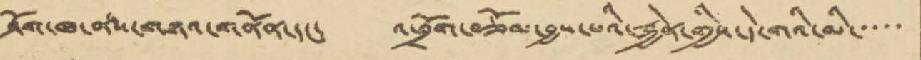ཤོག་ཁ་ནས་གཉའ་གནོན་དང་ འཕྲོག་བཅོམ་བྱས་པའི་རྐྱེན་གྱིས་དེ་གའི་མི་་་་་
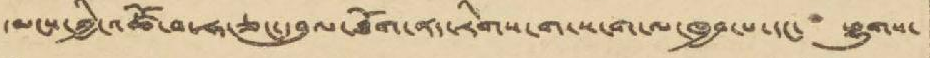དམངས་ཀྱི་འཚོ་བ་ཧ་ཅང་དབུལ་ཐོག་ནད་རིགས་ག་ས་ག་ལ་ཁྱབ་པ་དང་ ཕྱུགས་
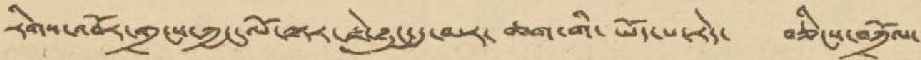རིགས་འབོར་གྲངས་ཀྱང་ལོ་ལྟར་ཇེ་ཉུང་དུ་མར་ཆག་གི་ཡོད་པ་རེད་ བཅིངས་བཀྲོལ་
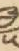༥
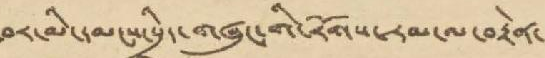བར་མི་དམངས་སྲིད་གཞུང་གི་རོགས་རམ་ལ་བརྟེན་
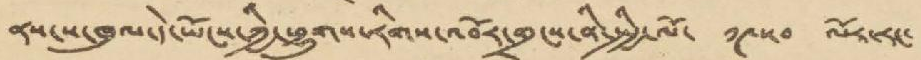ནས་ས་ཁུལ་དེ་ཡོངས་ཀྱི་ཕྱུགས་རིགས་འབོར་གྲངས་ནི་སྤྱི་ལོ་ ༡༩༥༠ ལོར་རང་
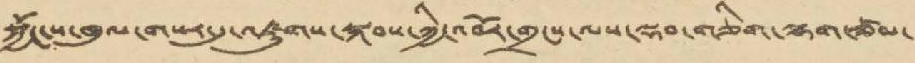སྐྱོང་ས་ཁུལ་གསར་དུ་འཛུགས་སྐབས་ཀྱི་འབོར་གྲངས་ལས་ལྡབ་གཅིག་ལྷག་ཙམ་
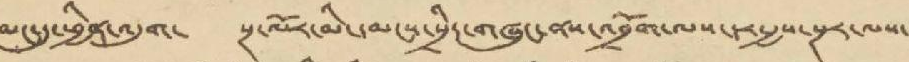མང་དུ་ཕྱིན་འདུག་ སྔ་ལོར་མི་དམངས་སྲིད་གཞུང་ནས་འབྲོག་ལས་དར་རྒྱས་སྔར་ལས་
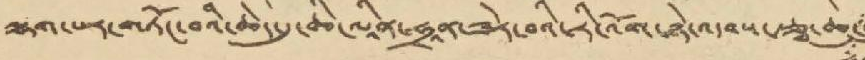ལྷག་པར་གཏོང་བའི་ཆེད་དུ་ཆི་ལཱིན་ཧྲཱན་ཟེར་བའི་རི་འོག་ཉེ་འདབས་རྩྭ་ཆུ་
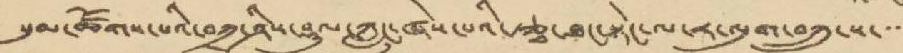སུམ་ཚོགས་པའི་བཀྲ་ཤིས་ཤུལ་ཀླུང་ཞེས་པའི་རྩྭ་ཐང་སྟེང་ལ་ར་ལུག་བཀྲུ་ས་་་་
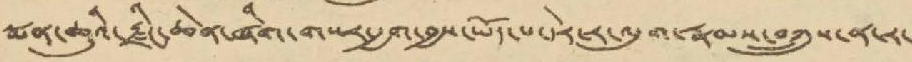སྨན་ཆུའི་རྫིང་ཆེན་ཞིག་གསར་རྒྱག་བྱས་ཡོད་པ་དེར་ར་ལུག་རྣམས་བཀྲུས་ན་ར་
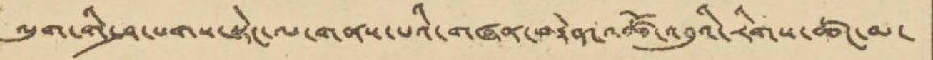ལུག་གི་ཤ་པགས་སྟེང་ལ་གནས་པའི་གཞན་བརྟེན་འཚོ་འབུའི་རིགས་ཚང་མ་
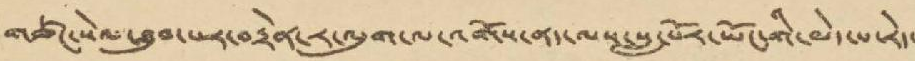གཙང་སེལ་ཐུབ་པར་བརྟེན་ར་ལུག་ལ་འགོས་ནད་ལས་སླ་པོར་ཡོང་གི་མེད་པ་རེད་
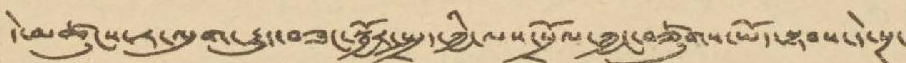དེ་མཚུངས་ར་ལུག་རྒྱུད་བཟང་སྦྱོར་སྤྲད་ཀྱི་ལས་སྲོལ་ཀྱང་བཙུགས་ཡོད་སྟབས་དེ་སྔ་
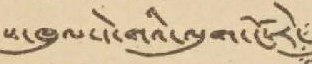ས་ཁུལ་དེ་གའི་ལུག་ངོ་རེ་
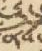ནས་
